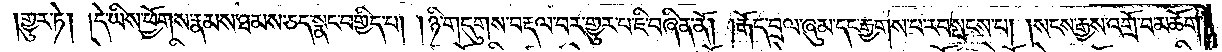གྱུར་ཏེ། །དེ་ཡིས་ཕྱོགས་རྣམས་ཐམས་ཅད་སྣང་བགྱིད་པ། །ཉི་གདུགས་བརྡལ་བར་གྱུར་པ་ཇི་བཞིན་ནོ། །རྒོད་བྲལ་ཞུམ་དང་རྒྱགས་པ་རབ་སྤངས་པ། །སངས་རྒྱས་འགྲོ་བ་མཆོག་
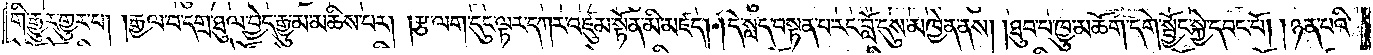གི་རྒྱུར་གྱུར་པ། །རྒྱལ་བ་དགྲ་ཐུལ་བྱེད་རྒྱུ་མ་མཆིས་པར། །རྩ་ལག་དུང་ལྟར་དཀར་འཛུམ་སྟོན་མི་མཛད། །དེ་སླད་བསྟན་པ་རང་བློ་དུས་མཁྱེན་ནས། །ཐུབ་པ་ཁྱུ་མཆོག་དགེ་སྦྱོང་སྐྱེ་དབང་པོ། །ཉན་པའི་
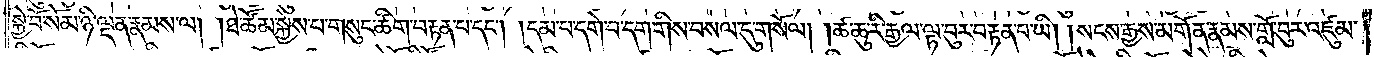སྐྱེ་བོ་སོམ་ཉི་ལྡན་རྣམས་ལ། །ཐེ་ཚོམ་སྐྱེས་པ་གསུང་ཚིག་བརྟན་པ་དང༌། །དམ་པ་དགེ་བ་དག་གིས་བསལ་དུ་གསོལ། །ཚ་ཆུ་རི་རྒྱལ་ལྟ་བུར་བརྟན་པ་ཡི། །སངས་རྒྱས་མགོན་རྣམས་གློ་བུར་འཛུམ་
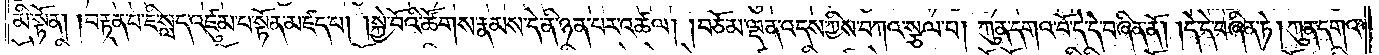མི་སྟོན། །བརྟན་པ་ཇི་སླད་འཛུམ་པ་སྟོན་མཛད་པ། །སྐྱེ་བོའི་ཚོགས་རྣམས་དེ་ནི་ཉན་པར་འཚལ། །བཅོམ་ལྡན་འདས་ཀྱིས་བཀའ་སྩལ་པ། ཀུན་དགའ་བོ་དེ་དེ་བཞིན་ནོ། །དེ་དེ་བཞིན་ཏེ། ཀུན་དགའ་
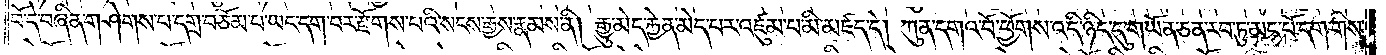བོ་དེ་བཞིན་གཤེགས་པ་དགྲ་བཅོམ་པ་ཡང་དག་པར་རྫོགས་པའི་སངས་རྒྱས་རྣམས་ནི། རྒྱུ་མེད་རྐྱེན་མེད་པར་འཛུམ་པ་མི་མཛད་དེ། ཀུན་དགའ་བོ་ཕྱོགས་འདི་ཉིད་དུ་གཡོན་ཅན་རབ་ཏུ་མང་པོ་དག་གིས་
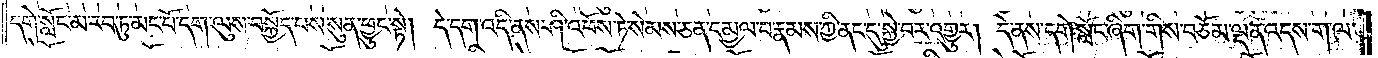དགེ་སློང་མ་རབ་ཏུ་མང་པོ་དག་ལུས་བསྐྱོད་པས་སུན་ཕྱུང་སྟེ། དེ་དག་འདི་ནས་ཤི་འཕོས་ཏེ་སེམས་ཅན་དམྱལ་བ་རྣམས་ཀྱི་ནང་དུ་སྐྱེ་བར་འགྱུར། དེ་ནས་དགེ་སློང་ཞིག་གིས་བཅོམ་ལྡན་འདས་ག་ལ་
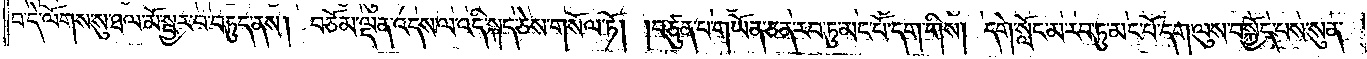བ་དེ་ལོགས་སུ་ཐལ་མོ་སྦྱར་བ་བཏུད་ནས། བཅོམ་ལྡན་འདས་ལ་འདི་སྐད་ཅེས་གསོལ་ཏོ། །བཙུན་པ་གཡོན་ཅན་རབ་ཏུ་མང་པོ་དག་གིས། དགེ་སློང་མ་རབ་ཏུ་མང་པོ་དག་ལུས་བསྐྱོད་པས་སུན་
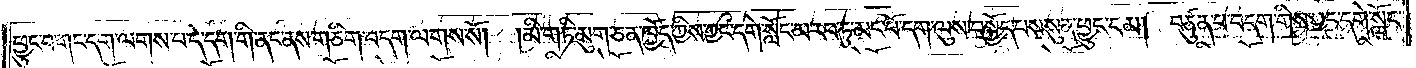ཕྱུང་བ་གང་དག་ལགས་པ་དེ་དག་གི་ནང་ནས་གཅིག་བདག་ལགས་སོ། །མི་གཏི་མུག་ཅན་ཁྱོད་ཀྱིས་ཀྱང་དགེ་སློང་མ་རབ་ཏུ་མང་པོ་དག་ལུས་བསྐྱོད་པས་སུན་ཕྱུང་ངམ། བཙུན་པ་བདག་གིས་ཀྱང་དགེ་སློང་
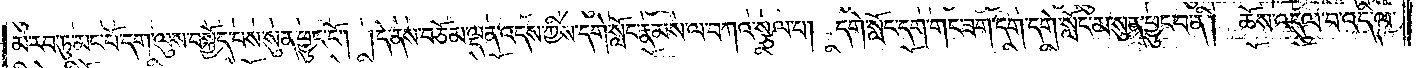མ་རབ་ཏུ་མང་པོ་དག་ལུས་བསྐྱོད་པས་སུན་ཕྱུང་ངོ༌། །དེ་ནས་བཅོམ་ལྡན་འདས་ཀྱིས་དགེ་སློང་རྣམས་ལ་བཀའ་སྩལ་པ། དགེ་སློང་དག་གང་ཟག་དག་དགེ་སློང་མ་སུན་ཕྱུང་བ་ནི། ཆོས་འདུལ་བ་འདི་ལ་
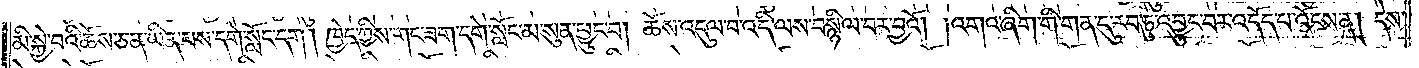མི་སྐྱེ་བའི་ཆོས་ཅན་ཡིན་པས་དགེ་སློང་དག། ཁྱེད་ཀྱིས་གང་ཟག་དགེ་སློང་མ་སུན་ཕྱུང་བ། ཆོས་འདུལ་བ་འདི་ལས་བསྙིལ་བར་བྱའོ། །འགའ་ཞིག་གི་གན་དུ་རབ་ཏུ་འབྱུང་བར་འདོད་པ་འོངས་ན། དེས་
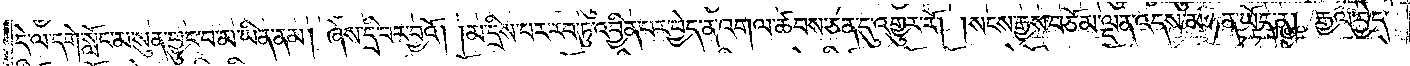དེ་ལ་དགེ་སློང་མ་སུན་ཕྱུང་བ་མ་ཡིན་ནམ། ཞེས་དྲི་བར་བྱའོ། །མ་དྲིས་པར་རབ་ཏུ་འབྱིན་པར་བྱེད་ན་འགལ་ཚབས་ཅན་དུ་འགྱུར་རོ། །སངས་རྒྱས་བཅོམ་ལྡན་འདས་མཉན་ཡོད་ན། རྒྱལ་བྱེད་
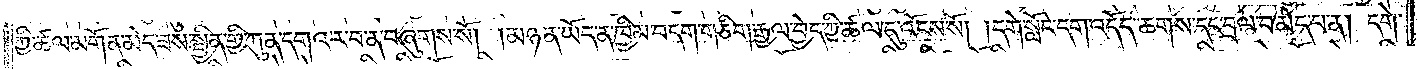ཀྱི་ཚལ་མགོན་མེད་ཟས་སྦྱིན་གྱི་ཀུན་དགའ་ར་བ་ན་བཞུགས་སོ། །མཉན་ཡོད་ན་ཁྱིམ་བདག་གཅིག་རྒྱལ་བྱེད་ཀྱི་ཚལ་དུ་འོངས་སོ། །དགེ་སློང་དག་འདོད་ཆགས་དང་བྲལ་བ་མེད་པ་ན། དགེ་
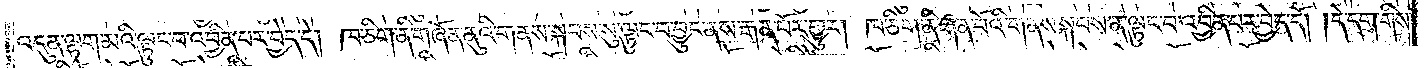འདུན་ལྷག་མའི་ལྟུང་བ་འབྱིན་པར་བྱེད་དེ། ཁ་ཅིག་ནི་གཞོན་ནུའི་གནས་སྐབས་སུ་ལྟུང་བ་བྱུང་ནས་རྒན་པོར་གྱུར། ཁ་ཅིག་ནི་རྒན་པོའི་གནས་སྐབས་ནི་ལྟུང་བ་འབྱིན་པར་བྱེད་དོ། །དེ་དག་གིས་
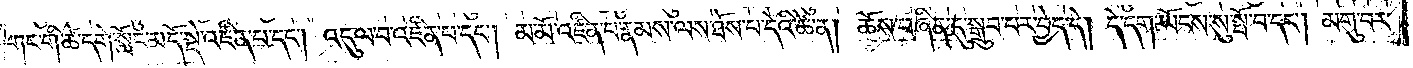གང་གི་ཚེ་དགེ་སློང་མདོ་སྡེ་འཛིན་པ་དང༌། འདུལ་བ་འཛིན་པ་དང༌། མ་མོ་འཛིན་པ་རྣམས་ལས་ཐོས་པ་དེའི་ཚེ་ན། ཆོས་བཞིན་དུ་སྒྲུབ་པར་བྱེད་དེ། དེ་དག་ཡོངས་སུ་སྤོ་བ་དང༌། མགུ་བར་
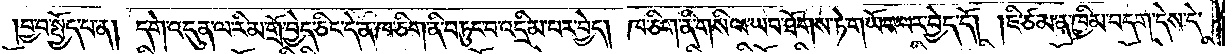བྱ་བ་སྤྱོད་པ་ན། དགེ་འདུན་ལ་རིམ་གྲོ་བྱེད་ཅིང་དེ་ན་ཁ་ཅིག་ནི་བཏུང་བ་འདྲིམ་པར་བྱེད། ཁ་ཅིག་ནི་གསིལ་ཡབ་ཐོགས་ཏེ་གཡོབ་པར་བྱེད་དོ། །ཇི་ཙམ་ན་ཁྱིམ་བདག་དེས་དེ་
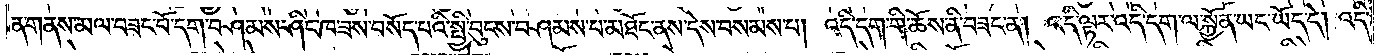ན་གནས་མལ་བཟང་པོ་དག་བཤམས་ཤིང་ཁ་ཟས་བསོད་པའི་སྤྱི་བུངས་བཤམས་པ་མཐོང་ནས་དེས་བསམས་པ། འདི་དག་གི་ཆོས་ནི་བཟང་ན། འདི་ལྟར་འདི་དག་ལ་སྐྱོན་ཡང་ཡོད་དེ། འདི་
